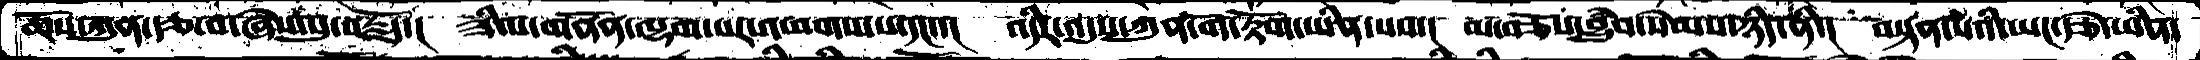ཆོས་ཀུན་རྩ་བ་ཞེས་སུ་བརྗོད་།  ཟིལ་གནོན་ལྷག་པར་འཕགས་པ་དང་་།   འདིར་འདུས་ཀུན་གོ་རྟོག་ཡིན་པས་།  མ་བཅོས་བྱུཾབ་སེམས་ཉིད་ནི་།  བསྟན་པའི་ཡང་རྩེ་ཡིན་
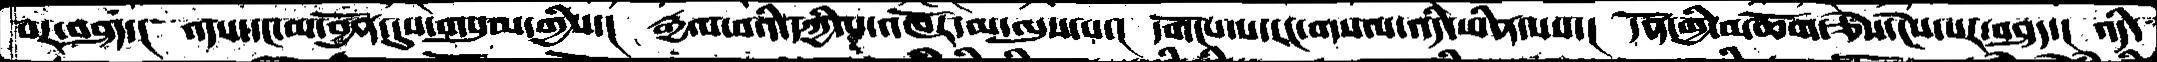བར་བཤད་།  འདས་དང་མ་བྱོན་དུས་གསུམ་གྱིས་།  རྒྱལ་བའི་དཀྱིལ་འཁོར་མ་ལུས་པ་།  དགོངས་པ་རང་གསལ་འདི་ཡིན་པས་།  དོན་གྱི་མཆོག་ཅེས་ངེས་པར་བཤད་།  འདི་
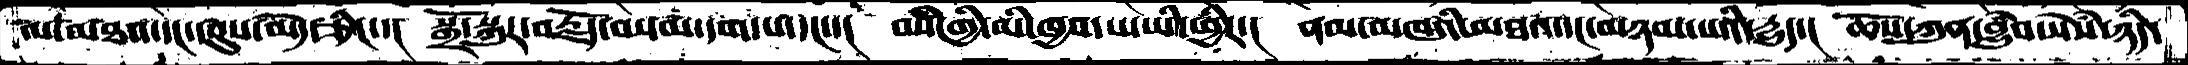ལ་མཐའ་དང་དབུས་མེད་ཅིང་་།  སྒྲོ་སྐུར་བརྗོད་བསམ་དག་པ་དང་་།  བསཾ་གྱི་མི་ཁྱབ་ས་ཡི་ཕྱིར་།  ནམ་མཁའི་མཐའ་དང་མཉམ་པའི་དྱུད་།  ཆོས་ཀུན་བྱུཾབ་སེཾས་ཉིད་
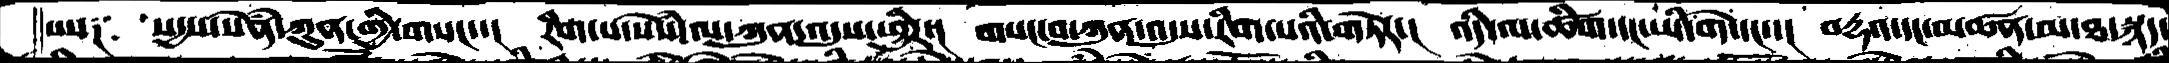པས༑   སདྱས་སེཾན་ཀུན་གྱི་གསང་་།  རིག་པ་སེཾས་ལ་ཀུན་འདུས་ཕྱིར་།  གསང་བ་ཀུན་འདུས་རིག་པའི་གཏེར་།  འདི་ལ་ཚིག་དང་ཡི་གེ་དང་་།  བརྡའ་དང་མཚན་མ་ཐ་སྙད་
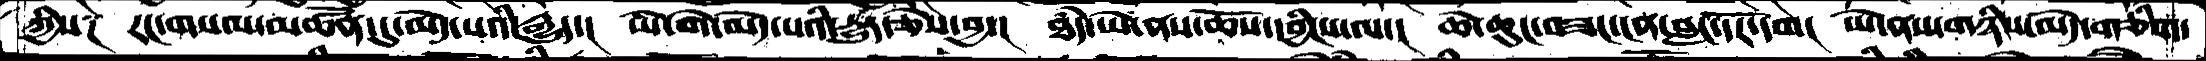ཀྱིས༑   རང་གསལ་མཚོན་དུ་མེད་པའི་རྒྱུད་།  ཡི་གེ་མེད་པའི་དྱུད་ཅེས་བྱ་།  ཐཾད་ཡེ་ནས་ཆོས་དབྱིངས་ལ་།  ཆེ་ཆུང་བཟང་ངན་བླང་དོར་དག།  ཡེ་ནས་གཉིས་མེད་གཅིག་
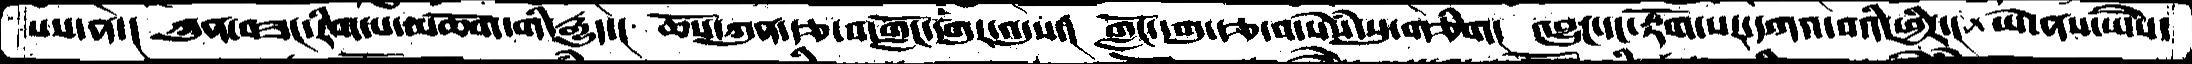པས་ན་།  ཀུན་བཟང་རིག་པ་མཆོག་གི་རྒྱུད་།  ཆོས་ཀུན་རྩ་བ་གློང་དགུར་འདུས་།  གློང་དགུ་རྩ་བ་སེཾས་སུ་གཅིག།  འབྱུང་དང་རྟོག་པར་དཀའ་བའི་ཕྱིར་།  ཡེ་ནས་ཡཻས་
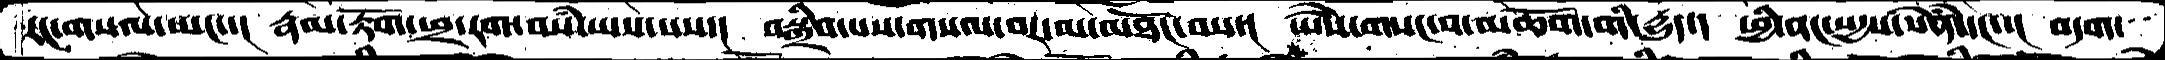རང་གསལ་ཡང་་།  རྣམ་རྟོག་ཕྲ་རག་བསཾ་ཡས་པས་།  བསྒྲིབ་པས་གསལ་བར་མ་མཐོང་བས་།  ཡཻས་གསང་བ་མཆོག་གི་དྱུད་།  ཕྱི་ནང་སདྱས་སེཾན་དང་་།  བདག་
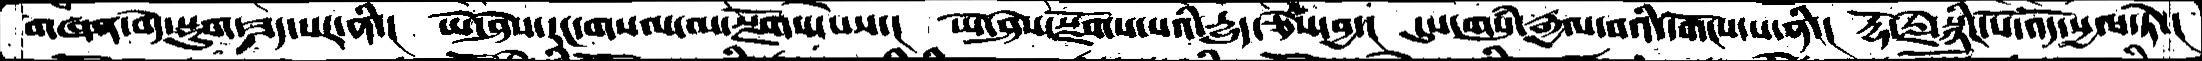གཞན་བདེ་སྡུག་ཟད་པར་ནི་།  ཡེ་ཤེས་རང་གསལ་མ་སྫོགས་པས་།  ཡེ་ཤེས་སྫོགས་པའི་དྱུད་ཅེས་བྱ་།  དུས་གསུཾ་རྒྱལ་བའི་དགོངས་པ་ནི་།  རྡོ་རྗེ་སྙིང་པོ་འོད་སྱལ་ཏེ་།
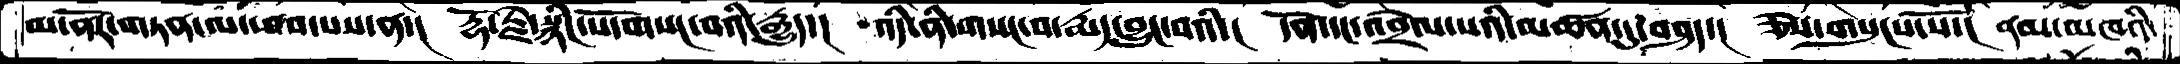མ་ནོར་གཏན་ལ་ཕབ་པས་ན་།  རྡོ་རྗེ་སྙིང་པོ་གསང་བའི་རྒྱུད་།  འདི་ནི་གསང་བ་རྨད་བྱུང་བའི་།  དོན་དང་འབྲེལ་པའི་མཚན་དུ་བཤད་།  ཅེས་གསུངས་སོ་།  ནམ་མཁའི་
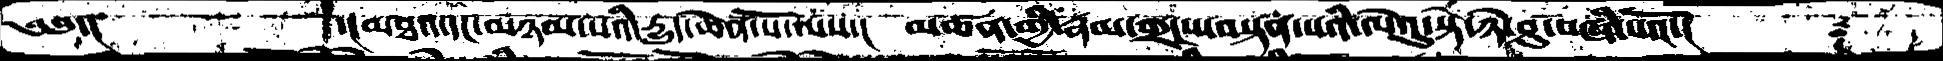༄༅་།         ་།མཐའ་དང་མཉམ་པའི་དྱུད་ཆེན་པོ་ལས་།  མཚན་གྱི་རྣམ་གྲངས་བསྟན་པའི་ལེའུ་སྟེ་ཉེ་ཤུ་བཞི་པའོ་།     ࿑
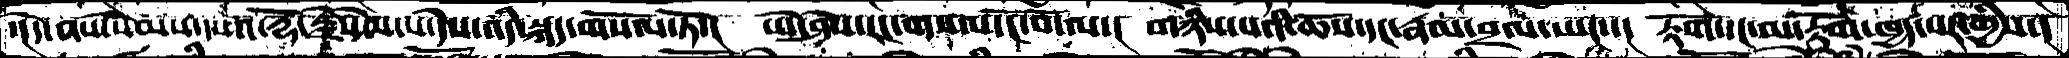་།དེ་ནས་སེམས་དཔའ་རྡོ་རྗེ་སེམ་པ་དེས་འདི་སྐད་གསོལ་ཏོ་།  ཡེ་ཤེས་རང་གསལ་ངོ་བོ་ལ་།   གཉིས་པའི་ཆོས་དང་རྣམ་བྲལ་ཡང་་།  རྟོག་དང་མ་རྟོག་ཁྱད་པར་གྱིས་།
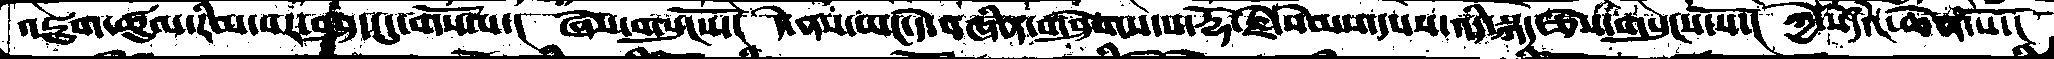འཇུག་ཚུལ་རིམ་པར་བཤད་དུ་གསོལ་།  ཞེས་གསུངསོ་།  དེ་ནས་ཡང་དེ་བཞིན་གཤེགས་པ་རྡོ་རྗེ་སེམས་དཔས་འདི་སྐད་ཅེས་གསུངས་སོ་།  ཀྱེ་སེཾདའ་ཆེན་པོ་།
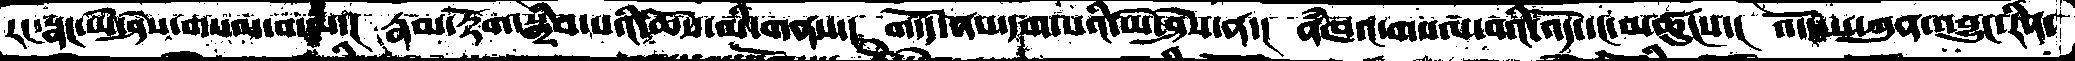རང་སྣང་ཡེ་ཤེས་གསལ་བ་ལ་།  རྣམ་རྟོག་སྒྲིབ་པའི་ཆོས་མི་གནས་།  གདོད་ནས་དག་པའི་ཡེ་ཤེས་ན་།   ནཾཁའ་གསལ་བའི་འོད་དང་མཚུངས་།  འདོད་པ་ཀུན་འབྱུང་རིན་
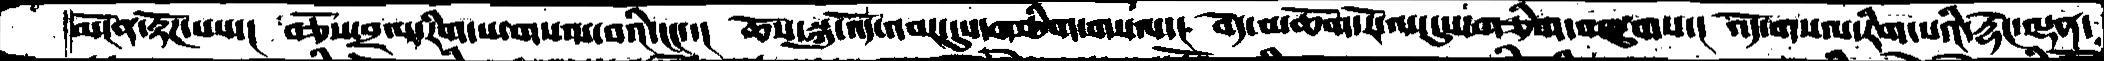མངོན་རྟོཌ་པས་།   བཅོས་བྲལ་རིག་པ་གསལ་བའི་ངང་་།  ཆོས་སྐུ་འོད་འབར་དུས་གཅིག་གསལ་།  བདེ་མཆོག་རོ་ལ་དུས་གཅིག་བཞུགས་།  འོད་གསལ་རིག་པའི་རྡེང་ལྡན་
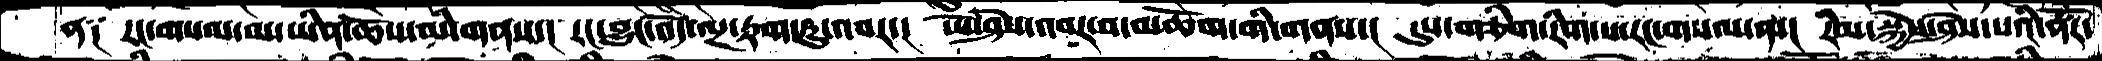ན༑   རང་གསལ་མ་ཡིན་ཆོས་མི་གནས་།  རང་བྱུང་འོད་ལྔ་རྟག་ཏུ་འབར་།   ཡེ་ཤེས་འབར་བ་མཆོག་གི་གནས་།  དུས་གཅིག་རིག་པ་རང་གསལ་ན་།  རིམ་སྐྱེས་ཤེས་པའི་ནོར་
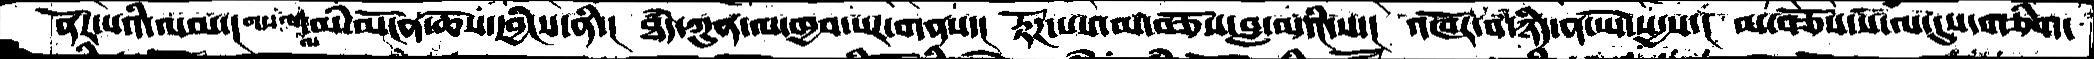ནོར་པའི་ལམ་།  གསལ་ལ་མི་མངོན་ཆོས་དབྱིངས་ནི་།  ཐཾད་ཀུན་ལ་ཁྱབ་པར་གནས་།  རྟོཌ་པས་མ་བཅོས་བླ་མའི་ས་།  འཁོར་བ་ཉིད་ན་ཡེ་སདྱས་།  མ་བཅོས་ས་ལ་དུས་གཅིག་
